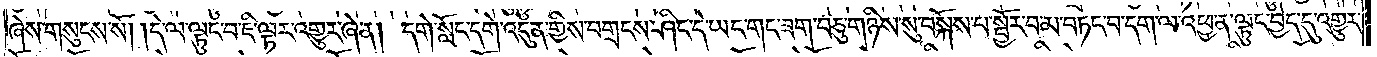ཞེས་གསུངས་སོ། །དེ་ལ་ལྟུང་བ་ཇི་ལྟར་འགྱུར་ཞེ་ན། དགེ་སློང་དགེ་འདུན་གྱིས་བགྲངས་ཤིང་དེ་ཡང་གང་ཟག་བཅུ་གཉིས་སུ་བསྐོས་པ་སྦྱོར་བ་མ་བཏང་བ་དག་ལ་འཕྱ་ན་ལྟུང་བྱེད་དུ་འགྱུར་
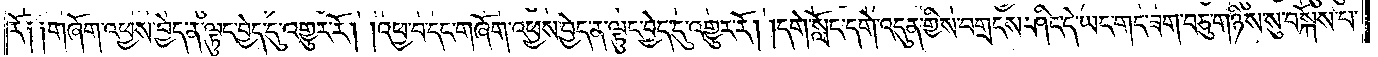རོ༑ ༑གཞོག་འཕྱས་བྱེད་ན་ལྟུང་བྱེད་དུ་འགྱུར་རོ། །འཕྱ་བ་དང་གཞོག་འཕྱས་བྱེད་ན་ལྟུང་བྱེད་དུ་འགྱུར་རོ། །དགེ་སློང་དགེ་འདུན་གྱིས་བགྲངས་ཤིང་དེ་ཡང་གང་ཟག་བཅུ་གཉིས་སུ་བསྐོས་པ་
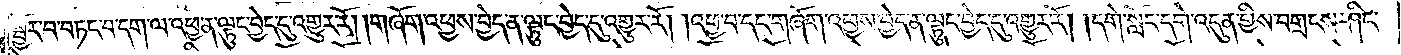སྦྱོར་བ་བཏང་བ་དག་ལ་འཕྱ་ན་ལྟུང་བྱེད་དུ་འགྱུར་རོ། །གཞོག་འཕྱས་བྱེད་ན་ལྟུང་བྱེད་དུ་འགྱུར་རོ། །འཕྱ་བ་དང་གཞོག་འཕྱས་བྱེད་ན་ལྟུང་བྱེད་དུ་འགྱུར་རོ། །དགེ་སློང་དགེ་འདུན་གྱིས་བགྲངས་ཤིང་
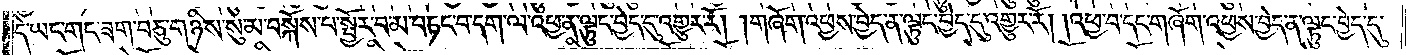དེ་ཡང་གང་ཟག་བཅུ་གཉིས་སུ་མ་བསྐོས་པ་སྦྱོར་བ་མ་བཏང་བ་དག་ལ་འཕྱ་ན་ལྟུང་བྱེད་དུ་འགྱུར་རོ། །གཞོག་འཕྱས་བྱེད་ན་ལྟུང་བྱེད་དུ་འགྱུར་རོ། །འཕྱ་བ་དང་གཞོག་འཕྱས་བྱེད་ན་ལྟུང་བྱེད་དུ་
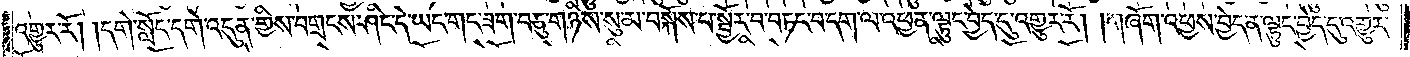འགྱུར་རོ། །དགེ་སློང་དགེ་འདུན་གྱིས་བགྲངས་ཤིང་དེ་ཡང་གང་ཟག་བཅུ་གཉིས་སུ་མ་བསྐོས་པ་སྦྱོར་བ་བཏང་བ་དག་ལ་འཕྱ་ན་ལྟུང་བྱེད་དུ་འགྱུར་རོ། །གཞོག་འཕྱས་བྱེད་ན་ལྟུང་བྱེད་དུ་འགྱུར་
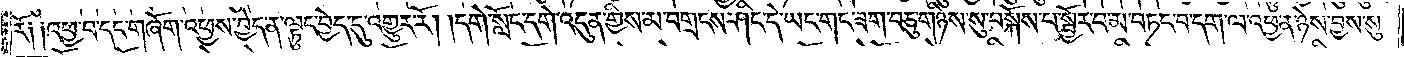རོ༑ ༑འཕྱ་བ་དང་གཞོག་འཕྱས་བྱེད་ན་ཉེས་ལྟུང་བྱེད་དུ་འགྱུར་རོ། །དགེ་སློང་དགེ་འདུན་གྱིས་མ་བགྲངས་ཤིང་དེ་ཡང་གང་ཟག་བཅུ་གཉིས་སུ་བསྐོས་པ་སྦྱོར་བ་མ་བཏང་བ་དག་ལ་འཕྱ་ན་ཉེས་བྱས་སུ་
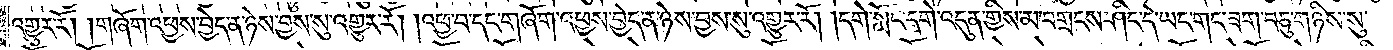འགྱུར་རོ། །གཞོག་འཕྱས་བྱེད་ན་ཉེས་བྱས་སུ་འགྱུར་རོ། །འཕྱ་བ་དང་གཞོག་འཕྱས་བྱེད་ན་ཉེས་བྱས་སུ་འགྱུར་རོ། །དགེ་སློང་དགེ་འདུན་གྱིས་མ་བགྲངས་ཤིང་དེ་ཡང་གང་ཟག་བཅུ་གཉིས་སུ་
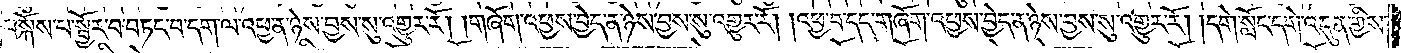བསྐོས་པ་སྦྱོར་བ་བཏང་བ་དག་ལ་འཕྱ་ན་ཉེས་བྱས་སུ་འགྱུར་རོ། །གཞོག་འཕྱས་བྱེད་ན་ཉེས་བྱས་སུ་འགྱུར་རོ། །འཕྱ་བ་དང་གཞོག་འཕྱས་བྱེད་ན་ཉེས་བྱས་སུ་འགྱུར་རོ། །དགེ་སློང་དགེ་འདུན་གྱིས་
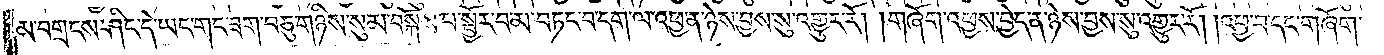མ་བགྲངས་ཤིང་དེ་ཡང་གང་ཟག་བཅུ་གཉིས་སུམ་བསྐོས་པ་སྦྱོར་བ་མ་བཏང་བ་དག་ལ་འཕྱ་ན་ཉེས་བྱས་སུ་འགྱུར་རོ། །གཞོག་འཕྱས་བྱེད་ན་ཉེས་བྱས་སུ་འགྱུར་རོ། །འཕྱ་བ་དང་གཞོག་
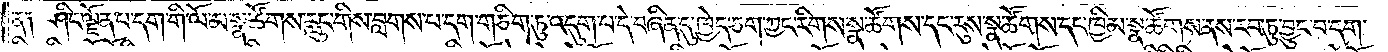ན༑ ཤིང་ལྗོན་པ་དག་གི་ལོ་མ་སྣ་ཚོགས་རླུང་གིས་བླགས་པ་དག་གཅིག་ཏུ་འདུག་པ་དེ་བཞིན་དུ་ཁྱེད་ཅག་ཀྱང་རིགས་སྣ་ཚོགས་དང་རུས་སྣ་ཚོགས་དང་ཁྱིམ་སྣ་ཚོགས་ནས་རབ་ཏུ་བྱུང་བ་དག་
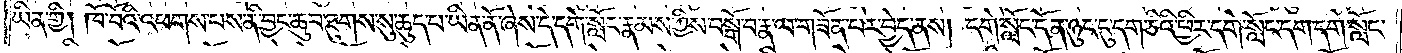ཡིན་གྱི། ཁོ་བོའི་འཕགས་པས་ནི་བྱང་ཆུབ་ཐུགས་སུ་ཆུད་པ་ཡིན་ནོ་ཞེས་དེ་དགེ་སློང་རྣམས་ཀྱིས་བསྒོ་བ་རྣ་ལ་གཟོན་པར་བྱེད་ནས། དགེ་སློང་དོན་ཉུང་དུ་དག་ཅིའི་ཕྱིར་དགེ་སློང་དག་དགེ་སློང་
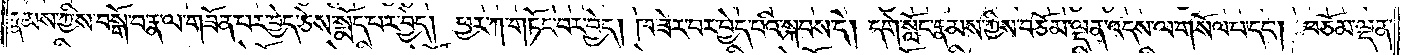རྣམས་ཀྱིས་བསྒོ་བ་རྣ་ལ་གཟོན་པར་བྱེད་ཅེས་སྨོད་པར་བྱེད། ཕྱར་ཀ་གཏོང་བར་བྱེད། ཁ་ཟེར་བར་བྱེད་པའི་སྐབས་དེ། དགེ་སློང་རྣམས་ཀྱིས་བཅོམ་ལྡན་འདས་ལ་གསོལ་པ་དང༌། བཅོམ་ལྡན་
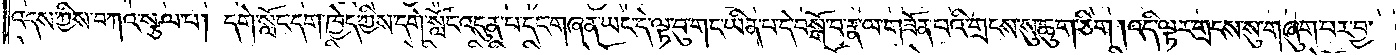འདས་ཀྱིས་བཀའ་སྩལ་པ། དགེ་སློང་དག་ཁྱེད་ཀྱིས་དགེ་སློང་འདུན་པ་དང་གཞན་ཡང་དེ་ལྟ་བུ་གང་ཡིན་པ་དེ་བསྒོ་བ་རྣ་ལ་གཟོན་པའི་གྲངས་སུ་ཆུག་ཅིག །འདི་ལྟར་གྲངས་སུ་གཞུག་པར་བྱ་
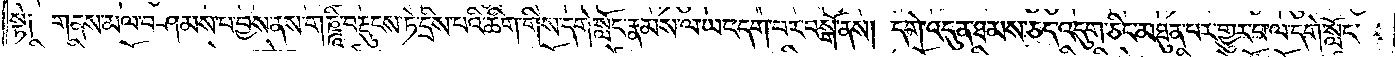སྟེ༑ གནས་མལ་བཤམས་པ་བྱས་ནས་གཎྜཱི་བརྡུངས་ཏེ་དྲིས་པའི་ཚིག་གིས་དགེ་སློང་རྣམས་ལ་ཡང་དག་པར་བསྒོ་ནས། དགེ་འདུན་ཐམས་ཅད་འདུག་ཅིང་མཐུན་པར་གྱུར་པ་ལ་དགེ་སློང་
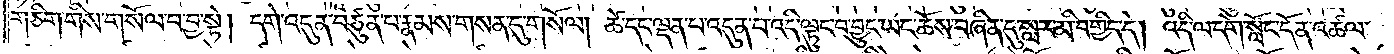གཅིག་གིས་གསོལ་པ་བྱ་སྟེ། དགེ་འདུན་བཙུན་པ་རྣམས་གསན་དུ་གསོལ། ཚེ་དང་ལྡན་པ་འདུན་པ་འདི་ལྟུང་བ་བྱུང་ཡང་ཆོས་བཞིན་དུ་སླར་མི་བགྱིད་དེ། འདི་ལ་དགེ་སློང་དོན་འཚལ་
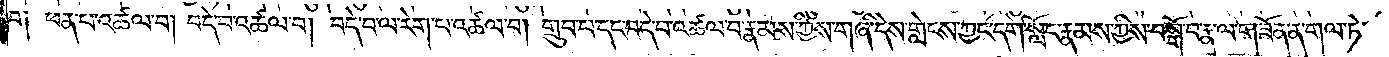བ༑ ཕན་པ་འཚལ་བ། བདེ་བ་འཚལ་བ། བདེ་བ་ལ་རེག་པ་འཚལ་བ། གྲུབ་པ་དང་བདེ་བ་འཚལ་བ་རྣམས་ཀྱིས་གཞི་དེས་གླེངས་ཀྱང་དགེ་སློང་རྣམས་ཀྱིས་བསྒོ་བ་རྣ་ལ་གཟོན་ན་གལ་ཏེ་
